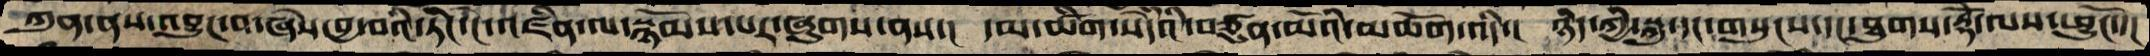ཀུན་ནས་འབྱུང་བ་ཞེས་བྱ་བའི་ཏིང་ངེ་འཛིན་ལ་སྙོམས་པར་ཞུགས་ནས་།  དམ་ཚིག་སེདཾའི་བཙུན་མོའི་མཆོག་འདི་།  ཉིད་ཀྱི་སྐུ་དང་གསུངས་དང་ཐུགས་རྡོེ་ལས་ཕྱུངོ་་།
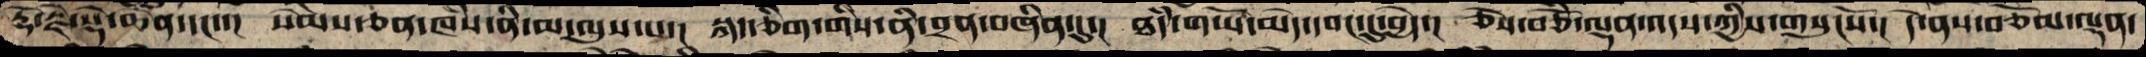རྡོ་རྗེ་སྡེ་ཆེན་དང་་།  སེམས་ཅན་ཁཾས་ནི་མ་ལུས་པ་།  སྐད་ཅིག་གིས་ནི་བྲན་བཞིན་དུ་།  ཐཾད་གཡོ་མེད་དབང་དུ་བྱེད་།  ཅེས་བཅོམ་ལྡན་འདས་ཀྱིས་གསུངསོ་།  དེ་ནས་བཅོམ་ལྡན་
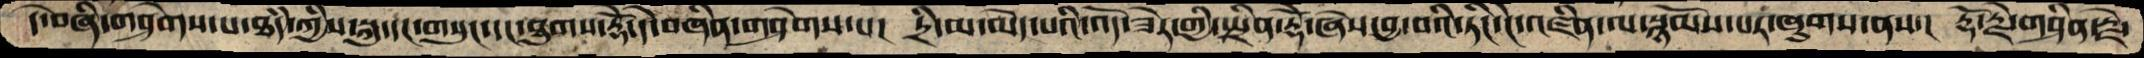དེ་བཞི་གཤེགས་པ་ཐཾད་ཀྱིས་སྐུ་དང་གསུང་དང་ཐུགས་རྡོེ་དེ་བཞིན་གཤེགས་པ་།  དྲི་མ་མེད་པའི་འོད་ཟེར་གྱི་སྤྲིན་རྡོེ་ཞེས་བྱ་བའི་ཏིང་ངེ་འཛིན་ལ་སྙོམས་པར་ཞུགས་ནས་།  རྡོ་རྗེ་གཤིན་རྗེ་
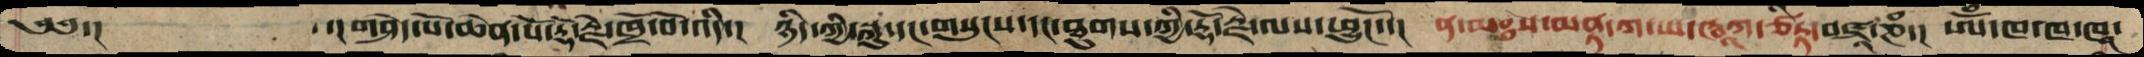༄༅་།    ་།གཤེད་པོ་ཆེན་པོ་རྡོ་རྗེ་ཁྲོ་བོ་འདི་།  ཉིད་ཀྱི་སྐུ་དང་གསུངས་དང་ཐུགས་ཀྱི་རྡོ་རྗེ་ལས་ཕྱུངོ་་།   ན་མཿས་མནྟ་ཀ་ཡ་ཝཱཀ་ཙིཏྟ་བཛྲཱ་ཎཾ་།  ཨོཾ་ཁ་ཁ་ཁཱ་
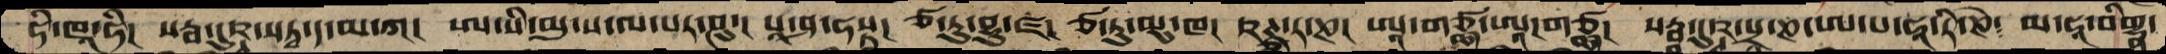ཧི་ཁཱ་ཧི།  སརྦ་དུཥྚ་སཏྭ་ད་མ་ཀ།  ཨ་སི་མུ་ས་ལ་པར་ཤུ་།  པཱ་ཤ་ཧསྟ། ཙ་ཏུ་བྷུ་ཛ།  ཙ་ཏུ་མུ་ཁ།  ཥཊྩ་ར་ཎ།  ཨཱ་གཙྪ་ཨཱ།གཙྪ།  སརྦ་དུཥྚ་པྲ་ཎ་ཨ་པ་ཧཱ་རི་ཎི།  མ་ཧཱ་བིགྷྣ་
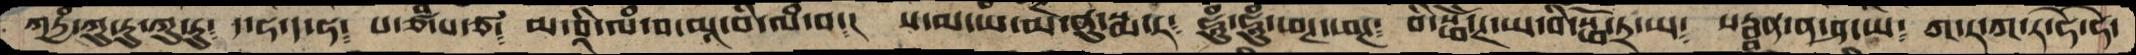ཀཏྱཾ་ཀུ་རུ་ཀུ་རུ།  ད་ཧ་ད་ཧ༴  པ་ཙི་པ་ཙ༴  མ་བཱི་ལཾ་བ་མཱ་བི་ལཾ་བ༴།  ས་མ་ཡ་མ་ནུ་སྨ་ར༴  ཧཱུཾ་ཧཱུྃ་ཕཊ་ཕཊ༴  བི་སྥོ་ཊ་ཡ་བི་སྥོ་ཏྲ་ཡ༴   སརྦྦན་ན་ཤ་ཡེ༴  ཀ་ར་ཀ་ར་ཧེ་ཧེ་
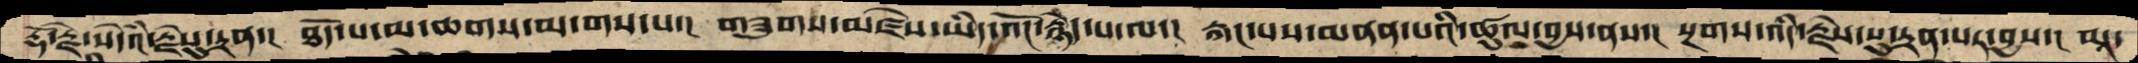རྡོ་རྗེ་སེདཾའ་རྗེསུ་དྲན་།  ཐོད་པ་མ་ཆགས་མ་གས་པ་།  གཟུགས་མཛེས་ཡིད་འོང་རྙེད་པ་ལ་།  རྐང་པས་མནན་པའི་ཚུལ་བྱས་ནས་།  སྔགས་འདི་རྗེས་སུ་དྲན་པར་བྱས་།  མཱ་
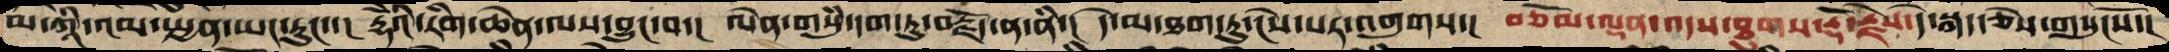མ་ཀཱི་འམ་སྤྱན་ཡང་རུང་་།  རྡོེའི་རིག་ཆེན་ལས་བྱུང་བ་།  ལེན་གསུཾ་དག་ཏུ་བརྗོད་ན་ནི་།  དེ་མ་ཐག་ཏུ་ངེས་པར་འགུགས་།  བཅོམ་ལྡན་འདས་ཐུགས་རྡོ་རྗེས་དེ་སྐད་ཅེས་གསུངསོ་།
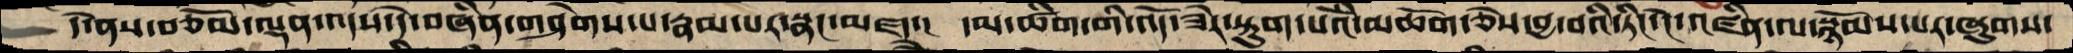དེ་ནས་བཅོམ་ལྡན་འདས་དེ་བཞིན་གཤེགས་པ་རྣམ་པར་སྣང་མཛད་།  དམ་ཚིག་གི་འོད་ཟེར་སྟུག་པོའི་མཆོག་ཅེས་བྱ་བའི་ཏིང་ངེ་འཛིན་ལ་སྙོམས་པར་ཞུགས་
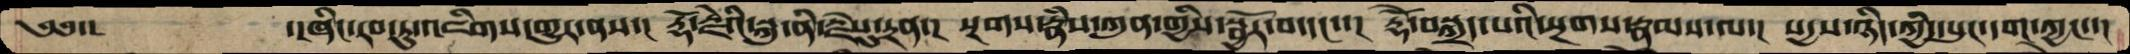༄༅་།       ་།ཞིང་རབ་ཏུ་འཇིགས་གྱུར་ནས་།  རྡོ་རྗེའི་སྐུ་ནི་རྗེསུ་དྲན་།  སྔགས་རྣཾས་ཀུན་གྱིས་སྦྱོར་བ་དང་་།  རྡོེ་བསྐྲད་པའི་སྔགས་རྣམས་ལ་།  སདྱས་ཉིད་ཀྱི་དཔུང་དག་ཀྱང་་།
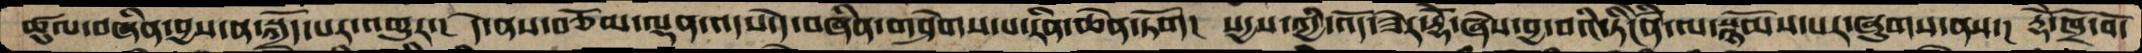ཚུལ་བཞིན་བྱས་ན་སྐྲོད་པར་འགྱུར་།  དེ་ནས་བཅོམ་ལྡན་འདས་དེ་བཞིན་གཤེགས་པ་རིན་ཆེན་ཏོག།  སདྱས་ཀྱི་འོད་ཟེར་རྡོེ་ཞེས་བྱ་བའི་ཏིངེཛིན་ལ་སྙོམས་པར་ཞུགས་ནས་།  རྡོེ་ཁྲོ་བོ་
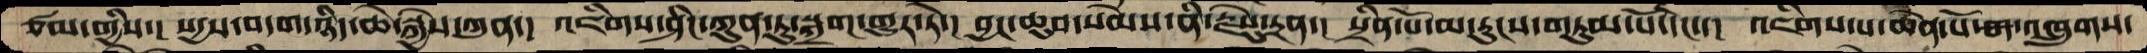ཙམ་གྱིས་།  སདྱས་བདག་ཉིད་ཆེ་སྐྱེས་ཀུན་།  འཇིགས་ཤིང་ཀུན་ཏུ་སྐྲག་གྱུར་ཏེ་།  བྱང་ཆུབ་སེམས་ནི་རྗེསུ་དྲན་།  སྲིན་པོ་མ་རུངས་གཏུམ་པོ་དང་་།  འཇིགས་པ་ཆེན་པོ་ག་འཁྲུགས་
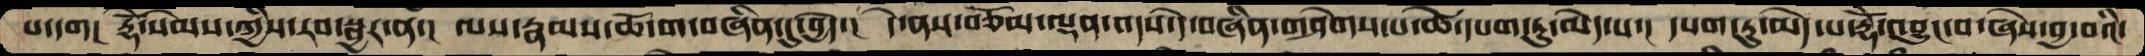པ་དག།  རྡོེ་སེམས་ཀྱིས་རབ་སྦྱར་ན་།  ལས་རྣམས་ཆོ་ག་བཞིན་དུ་བྱེད་།  དེ་ནས་བཅོམ་ལྡན་འདས་དེ་བཞིན་གཤེགས་པ་ཚེ་དཔག་ཏུ་མེད་པ་།  དཔག་ཏུ་མེད་པ་རྡོེ་འབྱུང་བ་ཞེས་བྱ་བའི་
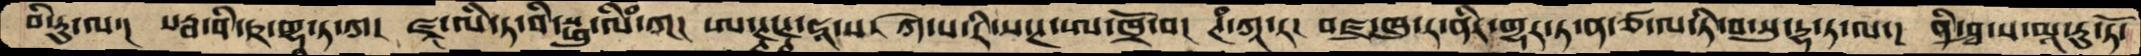བི་རུ་ལ་།  སརྦ་བི་ཥ་གྷཱ་ཏ་ཀ།  ཛཱ་ལི་ཏ་བི་སྥུ་ལིཾ་ཀ།  ཨ་ཊྚ་ཊྚ་ཧཱ་ས།  ཀེ་ས་རི་ས་ཊ་ཨ་ཁྲོ་བ།  ཊཾ་ཀཱ་ར།  བཛྲ་ཁུ་ར་ནིར་གྷར་ཏ་ན་ཙ་ལ་ཏི་བ་སུ་དྷ་ཏ་ལ་།  ནི་ཤྭ་ས་མཱ་རུ་ཏོ་
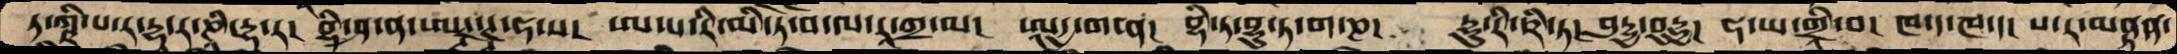ཏ་ཀྵི་པ་ར་དྷ་ར་ཎི་དྷ་ར།  བྷི་ཤ་ན་ཨཊྚ་ཊྚ་ཧ་ས།  ཨ་པ་རི་མི་ཏ་བ་ལ་ར་ཀྲ་མ།  ཨཱདྱ་ག་ན།  བྷི་ཏ་བྷུ་ཏ་ག་ཎ།  དྷུ་རི་ཥི་ཏ།  བུདྷྱ་བུདྷྱ།  ཧ་ཡ་གྲཱི་བ།  ཁ་ད་ཁ་ད།  པ་ར་མནྟན་
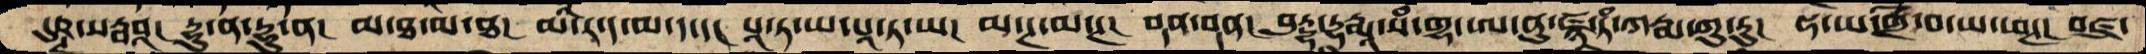དུཥྚ་སརྦབཱ།  དྷུ་ན་དྷུ་ན།  མ་ཐ་མཐ།  མི་ར་ད་མ་ད་ད།  པཱ་ཏ་ཡ་པཱ་ཏ་ཡ།  མ་ཊ་མ་ཊ།  བནྡ་བནྡ།  བུདྷ་དྷརྨཱ་སཾ་གྷ་ཨ་ནུ་ཛྙ་ཏཾ་ཀརྨ་གུ་རུ།  ཧ་ཡ་གྲོ་བ་ཡ་ཕཊ།  བཛྲ་
